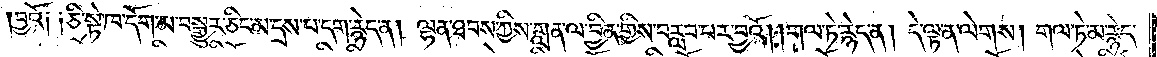བྱའོ། །ཅི་སྟེ་ཁ་དོག་མ་བསྒྱུར་ཅིང་མ་དྲས་པ་དག་རྙེད་ན། ལྷན་ཐབས་ཀྱིས་གླན་ལ་བྱིན་གྱིས་བརླབ་པར་བྱའོ། །གལ་ཏེ་རྙེད་ན། དེ་ལྟ་ན་ལེགས། གལ་ཏེ་མ་རྙེད་
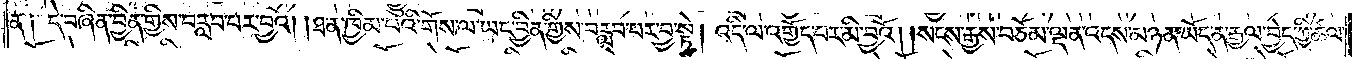ན། དེ་བཞིན་བྱིན་གྱིས་བརླབ་པར་བྱའོ། །ཐ་ན་ཁྱིམ་པའི་གོས་ལ་ཡང་བྱིན་གྱིས་བརླབ་པར་བྱ་སྟེ། འདི་ལ་འགྱོད་པར་མི་བྱའོ། །སངས་རྒྱས་བཅོམ་ལྡན་འདས་མཉན་ཡོད་ན་རྒྱལ་བྱེད་ཀྱི་ཚལ་
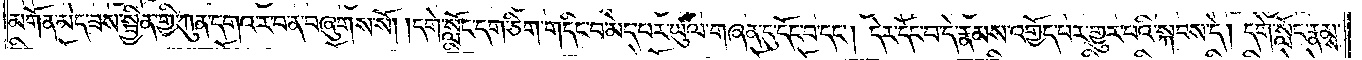མགོན་མེད་ཟས་སྦྱིན་གྱི་ཀུན་དགའ་ར་བ་ན་བཞུགས་སོ། །དགེ་སློང་དག་ཅིག་གདིང་བ་མེད་པར་ཡུལ་གཞན་དུ་དོང་བ་དང༌། དེར་དོང་བ་དེ་རྣམས་འགྱོད་པར་གྱུར་པའི་སྐབས་དེ། དགེ་སློང་རྣམས་
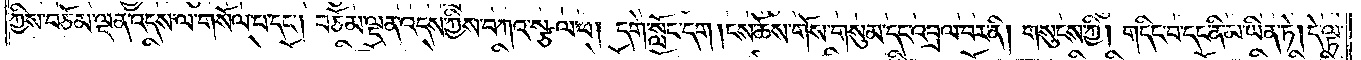ཀྱིས་བཅོམ་ལྡན་འདས་ལ་གསོལ་པ་དང༌། བཅོམ་ལྡན་འདས་ཀྱིས་བཀའ་སྩལ་པ། དགེ་སློང་དག །ངས་ཆོས་གོས་གསུམ་དང་འབྲལ་བར་ནི། གསུངས་ཀྱི། གདིང་བ་དང་ནི་མ་ཡིན་ཏེ། དེ་ལྟ་
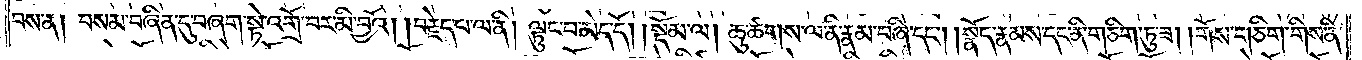བས་ན། བསམ་བཞིན་དུ་བཞག་སྟེ་འགྲོ་བར་མི་བྱའོ། །བརྗེད་པ་ལ་ནི། ལྟུང་བ་མེད་དོ།    །སྡོམ་ལ། ཆུ་ཚགས་ལ་ནི་རྣམ་བཞི་དང༌། །སྣོད་རྣམས་དང་ནི་གཅིག་ཏུ་ཟ། །གོས་གཅིག་གིས་ནི་
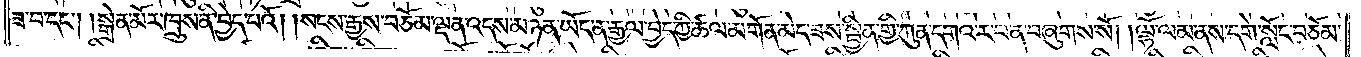ཟ་བ་དང༌། །སྒྲེན་མོར་ཁྲུས་ནི་བྱེད་པའོ། །སངས་རྒྱས་བཅོམ་ལྡན་འདས་མཉན་ཡོད་ན་རྒྱལ་བྱེད་ཀྱི་ཚལ་མགོན་མེད་ཟས་སྦྱིན་གྱི་ཀུན་དགའ་ར་བ་ན་བཞུགས་སོ། །ལྷོ་ལམ་ནས་དགེ་སློང་བཅོམ་
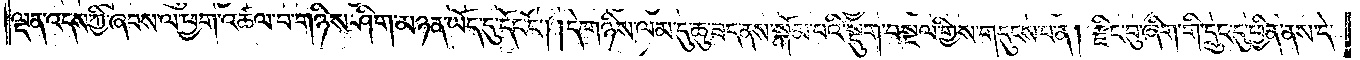ལྡན་འདས་ཀྱི་ཞབས་ལ་ཕྱག་འཚལ་བ་གཉིས་ཤིག་མཉན་ཡོད་དུ་དོང་ངོ༌། །དེ་གཉིས་ལམ་དུ་ཆུ་ཟད་ནས་སྐོམ་པའི་སྡུག་བསྔལ་གྱིས་གདུངས་པ་ན། རྫིང་བུ་ཞིག་གི་དྲུང་དུ་ཕྱིན་ནས་དེ་
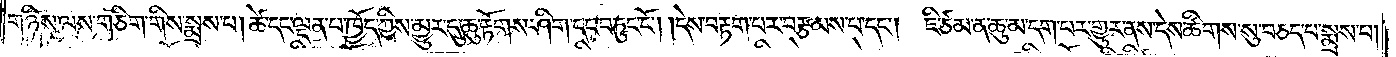གཉིས་ལས་གཅིག་གིས་སྨྲས་པ། ཚེ་དང་ལྡན་པ་ཁྱོད་ཀྱིས་མྱུར་དུ་ཆུ་རྟོགས་ཤིག་དང་བཏུང་ངོ༌། །དེས་བརྟག་པར་བརྩམས་པ་དང༌། ཇི་ཙམ་ན་ཆུ་མ་དག་པར་གྱུར་ནས་དེས་ཚིགས་སུ་བཅད་པ་སྨྲས་པ།
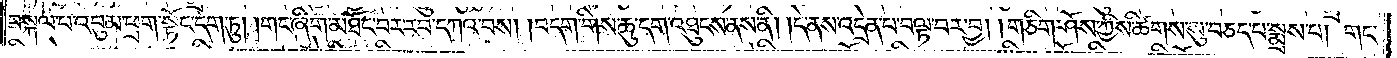བསྐལ་པ་འབུམ་ཕྲག་སྟོང་དག་ཏུ། །གང་ཞིག་མཐོང་བར་རབ་དཀའ་བས། །བདག་གིས་ཆུ་དག་འཐུངས་ནས་ནི། །དེ་ནས་འདྲེན་པ་བལྟ་བར་བྱ། །གཅིག་ཤོས་ཀྱིས་ཚིགས་སུ་བཅད་པ་སྨྲས་པ། གང་
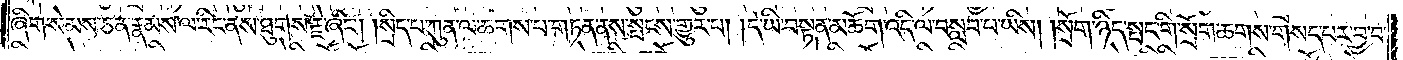ཞིག་སེམས་ཅན་རྣམས་ལ་རིང་ནས་ཐུགས་རྗེ་ཞིང༌། །སྲིད་པ་ཀུན་ལ་ཆགས་པ་གཏན་ནས་སྤངས་གྱུར་པ། །དེ་ཡི་བསྟན་མཆོག་འདི་ལ་བསླབ་པ་ཡིས། །སྲོག་ཉིད་སྤང་གི་སྲོག་ཆགས་གསད་པར་བྱ་བ་
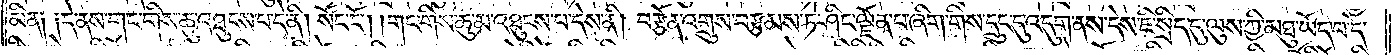མིན། །དེ་ནས་གང་གིས་ཆུ་འཐུངས་པ་དེ་ནི། སོང་ངོ༌། །གང་གིས་ཆུ་མ་འཐུངས་པ་དེས་ནི། བརྩོན་འགྲུས་བརྩམས་ཏེ་ཤིང་ལྗོན་པ་ཞིག་གིས་དྲུང་དུ་འདུག་ནས་དེས་ཇི་སྲིད་དུ་ལུས་ཀྱི་མཐུ་ཡོད་པ་དེ་
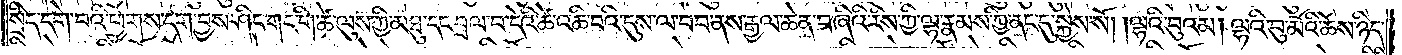སྲིད་དགེ་བའི་ཕྱོགས་དག་བྱས་ཤིང་གང་གི་ཚེ་ལུས་ཀྱི་མཐུ་དང་བྲལ་བ་དེའི་ཚེ་འཆི་བའི་དུས་ལ་བབ་ནས་རྒྱལ་ཆེན་བཞིའི་རིས་ཀྱི་ལྷ་རྣམས་ཀྱི་ནང་དུ་སྐྱེས་སོ། །ལྷའི་བུའམ། ལྷའི་བུ་མོའི་ཆོས་ཉིད་
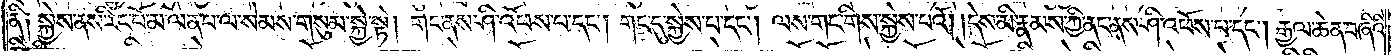ནི༑ སྐྱེས་ནས་རིང་པོ་མ་ལོན་པ་ལ་སེམས་གསུམ་སྐྱེ་སྟེ། གང་ནས་ཤི་འཕོས་པ་དང༌། གང་དུ་སྐྱེས་པ་དང༌། ལས་གང་གིས་སྐྱེས་པའོ། །དེས་མི་རྣམས་ཀྱི་ནང་ནས་ཤི་འཕོས་པ་དང༌། རྒྱལ་ཆེན་བཞིའི་
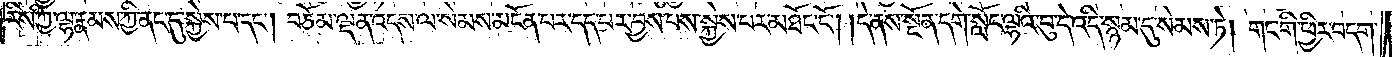རིས་ཀྱི་ལྷ་རྣམས་ཀྱི་ནང་དུ་སྐྱེས་པ་དང༌། བཅོམ་ལྡན་འདས་ལ་སེམས་མངོན་པར་དད་པར་བྱས་པས་སྐྱེས་པར་མཐོང་ངོ༌། །དེ་ནས་སྔོན་དགེ་སློང་ལྷའི་བུ་དེ་འདི་སྙམ་དུ་སེམས་ཏེ། གང་གི་ཕྱིར་བདག་
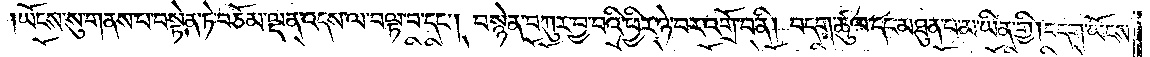ཡོངས་སུ་གནས་པ་བསྟེན་ཏེ་བཅོམ་ལྡན་འདས་ལ་བལྟ་བ་དང༌། བསྙེན་བཀུར་བྱ་བའི་ཕྱིར་ཉེ་བར་འགྲོ་བ་ནི། བདག་ཚུལ་དང་མཐུན་པ་མ་ཡིན་གྱི། བདག་ཡོངས་
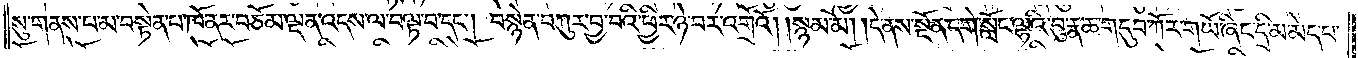སུ་གནས་པ་མ་བསྟེན་པ་ཁོ་ནར་བཅོམ་ལྡན་འདས་ལ་བལྟ་བ་དང༌། བསྙེན་བཀུར་བྱ་བའི་ཕྱིར་ཉེ་བར་འགྲོའོ། །སྙམ་མོ། །དེ་ནས་སྔོན་དགེ་སློང་ལྷའི་བུ་རྣ་ཆ་གདུབ་ཀོར་གཡོ་ཞིང་དྲི་མ་མེད་པ་
